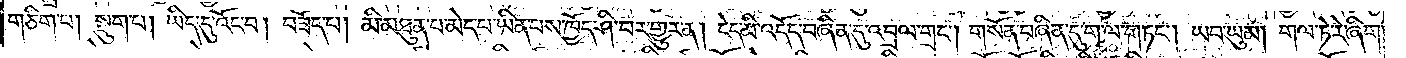གཅིག་པ། སྡུག་པ། ཡིད་དུ་འོང་བ། བཟོད་པ། མི་མཐུན་པ་མེད་པ་ཡིན་པས་ཁྱོད་ཤི་བར་གྱུར་ན། ངེད་མི་འདོད་བཞིན་དུ་འབྲལ་གྲང༌། གསོན་བཞིན་དུ་ག་ལ་གཏང༌། ཡབ་ཡུམ། གལ་ཏེ་རེ་ཞིག་
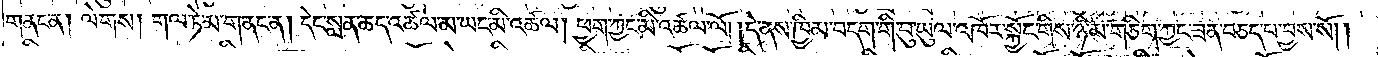གནང་ན། ལེགས། གལ་ཏེ་མ་གནང་ན། དེང་སླན་ཆད་འཚལ་མ་ཡང་མི་འཚལ། ཕྱག་ཀྱང་མི་འཚལ་ལོ། །དེ་ནས་ཁྱིམ་བདག་གི་བུ་ཡུལ་འཁོར་སྐྱོང་གིས་ཉི་མ་གཅིག་ཀྱང་ཟན་བཅད་པ་བྱས་སོ། །
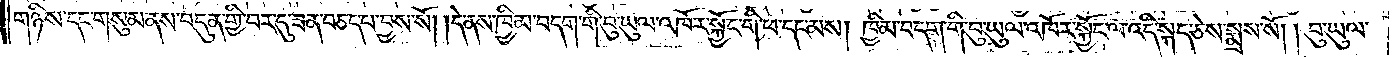གཉིས་དང་གསུམ་ནས་བདུན་གྱི་བར་དུ་ཟན་བཅད་པ་བྱས་སོ། །དེ་ནས་ཁྱིམ་བདག་གི་བུ་ཡུལ་འཁོར་སྐྱོང་གི་ཕ་དང་མས། ཁྱིམ་བདག་གི་བུ་ཡུལ་འཁོར་སྐྱོང་ལ་འདི་སྐད་ཅེས་སྨྲས་སོ། །བུ་ཡུལ་
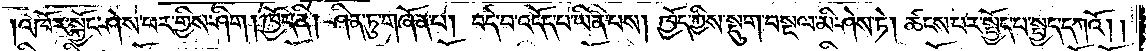འཁོར་སྐྱོང་ཤེས་པར་གྱིས་ཤིག །ཁྱོད་ནི། ཤིན་ཏུ་གཞོན་པ། བདེ་བ་འདོད་པ་ཡིན་པས། ཁྱོད་ཀྱིས་སྡུག་བསྔལ་མི་ཤེས་ཏེ། ཚངས་པར་སྤྱོད་པ་སྤྱད་དཀའོ། །
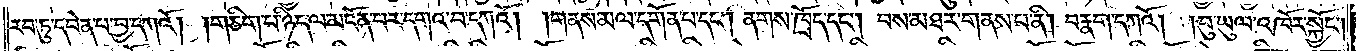རབ་ཏུ་དབེན་པ་བྱ་དཀའོ། །གཅིག་པ་ཉིད་ལ་མངོན་པར་དགའ་བ་དཀའོ། །གནས་མལ་དགོན་པ་དང༌། ནགས་ཁྲོད་དང༌། བས་མཐར་གནས་པ་ནི། བརྣག་དཀའོ། །བུ་ཡུལ་འཁོར་སྐྱོང༌།
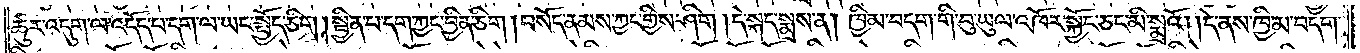ཚུར་འདུག་ལ་འདོད་པ་དག་ལ་ཡང་སྤྱོད་ཅིག །སྦྱིན་པ་དག་ཀྱང་བྱིན་ཅིག། བསོད་ནམས་ཀྱང་གྱིས་ཤིག །དེ་སྐད་སྨྲས་ན། ཁྱིམ་བདག་གི་བུ་ཡུལ་འཁོར་སྐྱོང་ཅང་མི་སྨྲའོ། །དེ་ནས་ཁྱིམ་བདག་
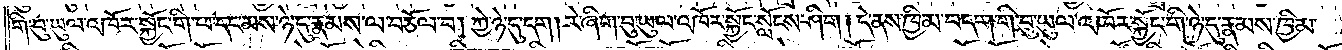གི་བུ་ཡུལ་འཁོར་སྐྱོང་གི་ཕ་དང་མས་ཉེ་དུ་རྣམས་ལ་བཅོལ་བ། ཀྱེ་ཉེ་དུ་དག། རེ་ཞིག་བུ་ཡུལ་འཁོར་སྐྱོང་སློངས་ཤིག། དེ་ནས་ཁྱིམ་བདག་གི་བུ་ཡུལ་འཁོར་སྐྱོང་གི་ཉེ་དུ་རྣམས་ཁྱིམ་
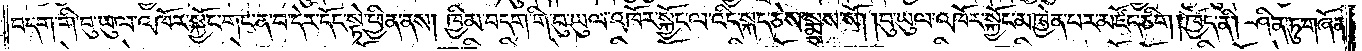བདག་གི་བུ་ཡུལ་འཁོར་སྐྱོང་གང་ན་བ་དེར་དོང་སྟེ་ཕྱིན་ནས། ཁྱིམ་བདག་གི་བུ་ཡུལ་འཁོར་སྐྱོང་ལ་འདི་སྐད་ཅེས་སྨྲས་སོ། །བུ་ཡུལ་འཁོར་སྐྱོང་མཁྱེན་པར་མཛོད་ཅིག །ཁྱོད་ནི། ཤིན་ཏུ་གཞོན་
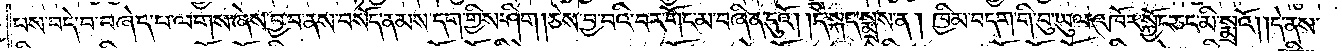པས་བདེ་བ་བཞེད་པ་ལགས་ཞེས་བྱ་བ་ནས་བསོད་ནམས་དག་གྱིས་ཤིག །ཅེས་བྱ་བའི་བར་གོང་མ་བཞིན་དུའོ། །དེ་སྐད་སྨྲས་ན། ཁྱིམ་བདག་གི་བུ་ཡུལ་འཁོར་སྐྱོང་ཅང་མི་སྨྲའོ། །དེ་ནས་
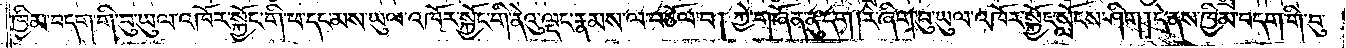ཁྱིམ་བདག་གི་བུ་ཡུལ་འཁོར་སྐྱོང་གི་ཕ་དང་མས་ཡུལ་འཁོར་སྐྱོང་གི་ནེའུ་ལྡང་རྣམས་ལ་བཅོལ་བ། ཀྱེ་གཞོན་ནུ་དག །རེ་ཞིག་བུ་ཡུལ་འཁོར་སྐྱོང་སློངས་ཤིག། དེ་ནས་ཁྱིམ་བདག་གི་བུ་
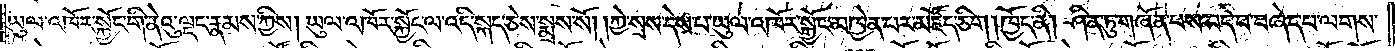ཡུལ་འཁོར་སྐྱོང་གི་ནེའུ་ལྡང་རྣམས་ཀྱིས། ཡུལ་འཁོར་སྐྱོང་ལ་འདི་སྐད་ཅེས་སྨྲས་སོ། །ཀྱེ་སྲས་དེས་པ་ཡུལ་འཁོར་སྐྱོང་མཁྱེན་པར་མཛོད་ཅིག །ཁྱོད་ནི། ཤིན་ཏུ་གཞོན་པས་བདེ་བ་བཞེད་པ་ལགས་
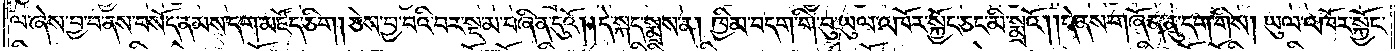ལ་ཞེས་བྱ་བ་ནས་བསོད་ནམས་དག་མཛོད་ཅིག །ཅེས་བྱ་བའི་བར་སྔ་མ་བཞིན་དུའོ། །དེ་སྐད་སྨྲས་ན། ཁྱིམ་བདག་གི་བུ་ཡུལ་འཁོར་སྐྱོང་ཅང་མི་སྨྲའོ། །དེ་ནས་གཞོན་ནུ་དག་གིས། ཡུལ་འཁོར་སྐྱོང་
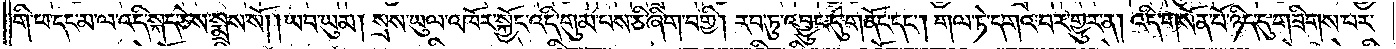གི་ཕ་དང་མ་ལ་འདི་སྐད་ཅེས་སྨྲས་སོ། །ཡབ་ཡུམ། སྲས་ཡུལ་འཁོར་སྐྱོང་འདི་གུམ་པས་ཅི་ཞིག་བགྱི། རབ་ཏུ་འབྱུང་དུ་གནོང་དང༌། གལ་ཏེ་དགའ་བར་གྱུར་ན། འདི་གསོན་པོ་ཉིད་དུ་གཟིགས་པར་
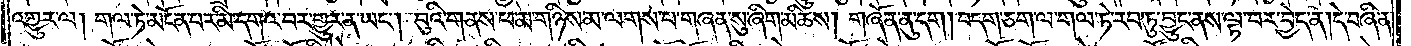འགྱུར་ལ། གལ་ཏེ་མངོན་པར་མི་དགའ་བར་གྱུར་ན་ཡང༌། བུའི་གནས་ཕ་མ་གཉིས་མ་ལགས་པ་གཞན་སུ་ཞིག་མཆིས། གཞོན་ནུ་དག། བདག་ཅག་ལ་གལ་ཏེ་རབ་ཏུ་བྱུང་ནས་ལྟ་བར་བྱེད་ན། དེ་བཞིན་
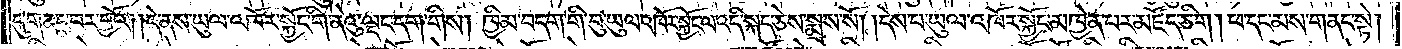དུ་གནང་བར་བྱའོ། །དེ་ནས་ཡུལ་འཁོར་སྐྱོང་གི་ནེའུ་ལྡང་དག་གིས། ཁྱིམ་བདག་གི་བུ་ཡུལ་འཁོར་སྐྱོང་ལ་འདི་སྐད་ཅེས་སྨྲས་སོ། །དེས་པ་ཡུལ་འཁོར་སྐྱོང་མཁྱེན་པར་མཛོད་ཅིག །ཕ་དང་མས་གནང་སྟེ།
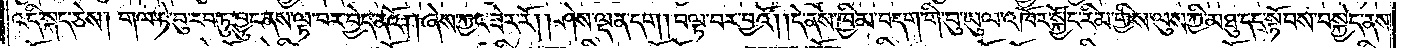འདི་སྐད་ཅེས། གལ་ཏེ་བུ་རབ་ཏུ་བྱུང་ནས་ལྟ་བར་བྱེད་ནའོ། །ཞེས་ཀྱང་ཟེར་རོ། །ཤེས་ལྡན་དག །བལྟ་བར་བྱའོ། །དེ་ནས་ཁྱིམ་བདག་གི་བུ་ཡུལ་འཁོར་སྐྱོང་རིམ་གྱིས་ལུས་ཀྱི་མཐུ་དང་སྟོབས་བསྐྱེད་ནས་
